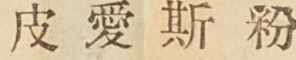皮 愛 斯 粉
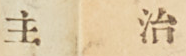主 治
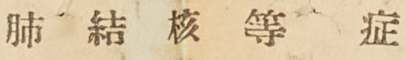肺 結 核 等 症
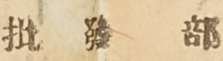批 發 部
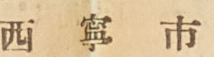西 寧 市
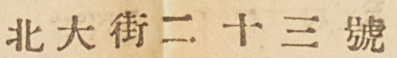北大街二十三號
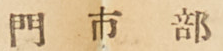門 市 部
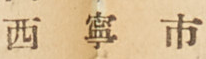西 寧 市
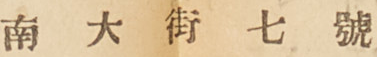南 大 街 七 號
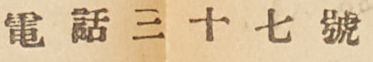電 話 三 十 七 號
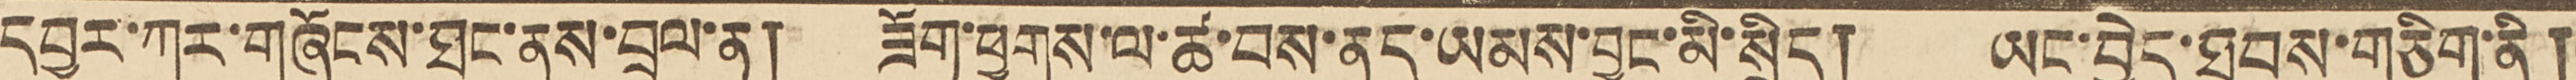དབྱར་ཀར་གཞོངས་ཐང་ནས་བྲལ་ན། ཟོག་ཕྱུགས་ལ་ཚ་བས་ནད་ཡམས་བྱུང་མི་སྲིད། ཡང་བྱེད་ཐབས་གཅིག་ནི།
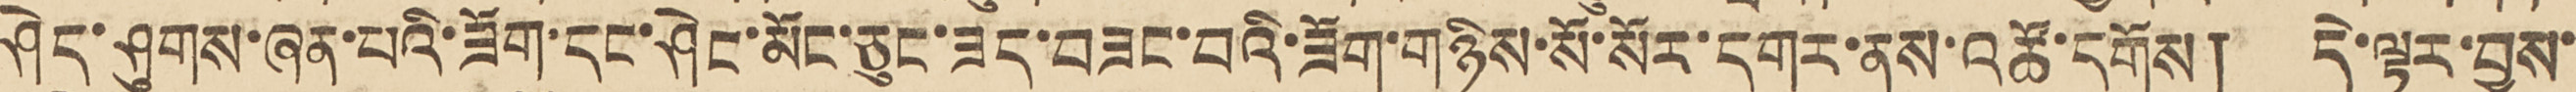ཤེད་ཤུགས་ཞན་པའི་ཟོག་དང་ཤེང་མོང་ཅུང་ཟད་བཟང་བའི་ཟོག་གཉིས་སོ་སོར་དགར་ནས་འཚོ་དགོས། དེ་ལྟར་བྱས་
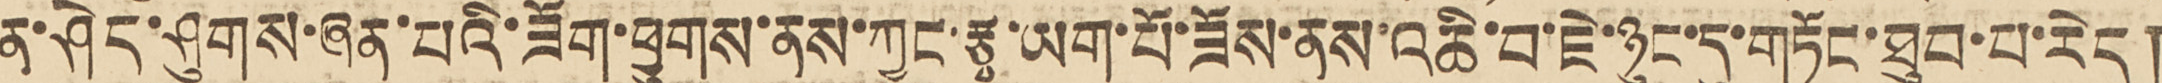ན་ཤེད་ཤུགས་ཞན་པའི་ཟོག་ཕྱུགས་ནས་ཀྱང་རྩྭ་ཡག་པོ་ཟོས་ནས་འཆི་བ་ཇེ་ཉུང་དུ་གཏོང་ཐུབ་པ་རེད།
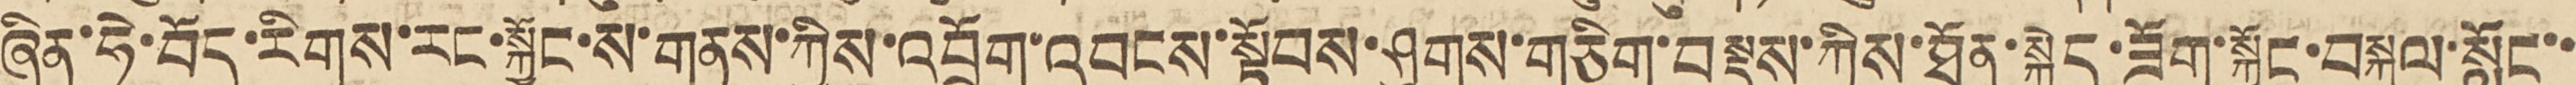ཞིན་ཧེ་བོད་རིགས་རང་སྐྱོང་ས་གནས་ཀྱིས་འབྲོག་འབངས་སྟོབས་ཤུགས་གཅིག་བསྡུས་ཀྱིས་ཐོན་སྐྱེད་ཟོག་སྐྱོང་བསྐུལ་སློང་་
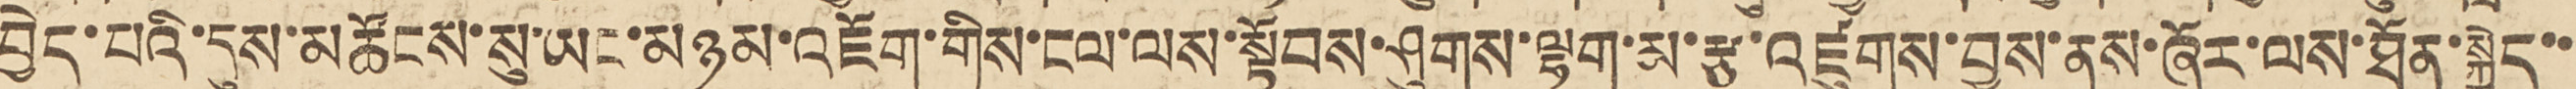བྱེད་པའི་དུས་མཚོངས་སུ་ཡང་མཉམ་འཇོག་གིས་ངལ་ལས་སྟོབས་ཤུགས་ལྷག་མ་རྩ་འཛུགས་བྱས་ནས་ཞོར་ལས་ཐོན་སྐྱེད་་
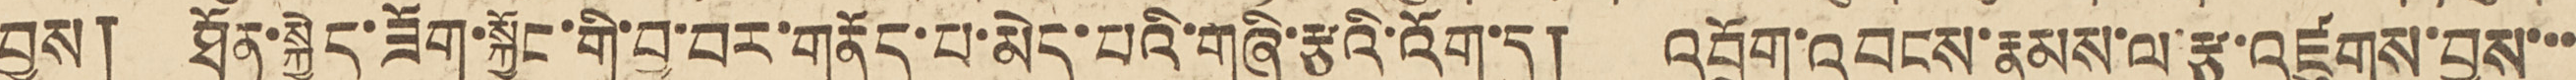བྱས། ཐོན་སྐྱེད་ཟོག་སྐྱོང་གི་བྱ་བར་གནོད་པ་མེད་པའི་གཞི་རྩའི་འོག་དུ། འབྲོག་འབངས་རྣམས་ལ་རྩ་འཛུགས་བྱས་་་
